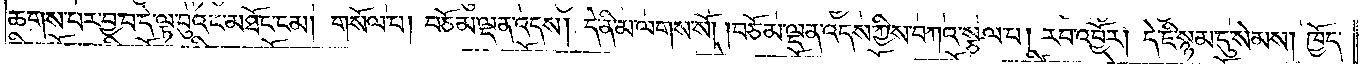ཆགས་པར་བྱ་བ་དེ་ལྟ་བུའང་མཐོང་ངམ། གསོལ་པ། བཅོམ་ལྡན་འདས། དེ་ནི་མ་ལགས་སོ། །བཅོམ་ལྡན་འདས་ཀྱིས་བཀའ་སྩལ་པ། རབ་འབྱོར། དེ་ཇི་སྙམ་དུ་སེམས། ཁྱོད་
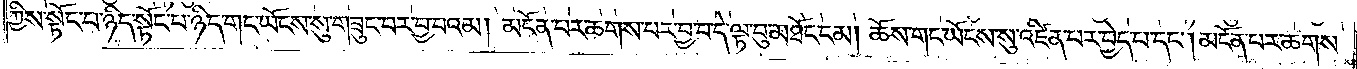ཀྱིས་སྟོང་པ་ཉིད་སྟོང་པ་ཉིད་གང་ཡོངས་སུ་གཟུང་བར་བྱ་བའམ། མངོན་པར་ཆགས་པར་བྱ་བ་དེ་ལྟ་བུ་མཐོང་ངམ། ཆོས་གང་ཡོངས་སུ་འཛིན་པར་བྱེད་པ་དང༌། མངོན་པར་ཆགས་
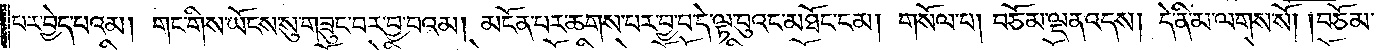པར་བྱེད་པའམ། གང་གིས་ཡོངས་སུ་གཟུང་བར་བྱ་བའམ། མངོན་པར་ཆགས་པར་བྱ་བ་དེ་ལྟ་བུའང་མཐོང་ངམ། གསོལ་པ། བཅོམ་ལྡན་འདས། དེ་ནི་མ་ལགས་སོ། །བཅོམ་
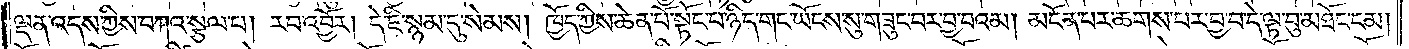ལྡན་འདས་ཀྱིས་བཀའ་སྩལ་པ། རབ་འབྱོར། དེ་ཇི་སྙམ་དུ་སེམས། ཁྱོད་ཀྱིས་ཆེན་པོ་སྟོང་པ་ཉིད་གང་ཡོངས་སུ་གཟུང་བར་བྱ་བའམ། མངོན་པར་ཆགས་པར་བྱ་བ་དེ་ལྟ་བུ་མཐོང་ངམ།
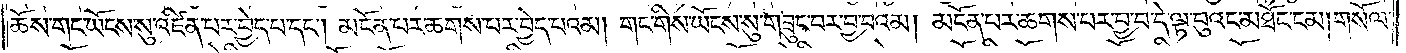ཆོས་གང་ཡོངས་སུ་འཛིན་པར་བྱེད་པ་དང༌། མངོན་པར་ཆགས་པར་བྱེད་པའམ། གང་གིས་ཡོངས་སུ་གཟུང་བར་བྱ་བའམ། མངོན་པར་ཆགས་པར་བྱ་བ་དེ་ལྟ་བུའང་མཐོང་ངམ། གསོལ་
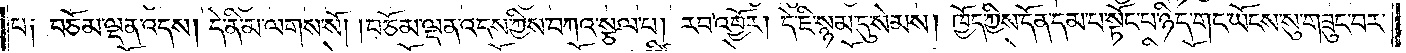པ༑ བཅོམ་ལྡན་འདས། དེ་ནི་མ་ལགས་སོ། །བཅོམ་ལྡན་འདས་ཀྱིས་བཀའ་སྩལ་པ། རབ་འབྱོར། དེ་ཇི་སྙམ་དུ་སེམས། ཁྱོད་ཀྱིས་དོན་དམ་པ་སྟོང་པ་ཉིད་གང་ཡོངས་སུ་གཟུང་བར་
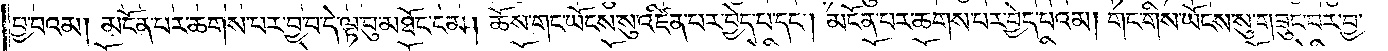བྱ་བའམ། མངོན་པར་ཆགས་པར་བྱ་བ་དེ་ལྟ་བུ་མཐོང་ངམ། ཆོས་གང་ཡོངས་སུ་འཛིན་པར་བྱེད་པ་དང༌། མངོན་པར་ཆགས་པར་བྱེད་པའམ། གང་གིས་ཡོངས་སུ་གཟུང་བར་བྱ་
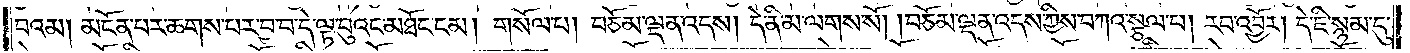བའམ། མངོན་པར་ཆགས་པར་བྱ་བ་དེ་ལྟ་བུའང་མཐོང་ངམ། གསོལ་པ། བཅོམ་ལྡན་འདས། དེ་ནི་མ་ལགས་སོ། །བཅོམ་ལྡན་འདས་ཀྱིས་བཀའ་སྩལ་པ། རབ་འབྱོར། དེ་ཇི་སྙམ་དུ་
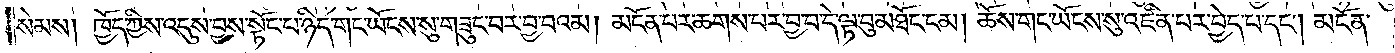སེམས། ཁྱོད་ཀྱིས་འདུས་བྱས་སྟོང་པ་ཉིད་གང་ཡོངས་སུ་གཟུང་བར་བྱ་བའམ། མངོན་པར་ཆགས་པར་བྱ་བ་དེ་ལྟ་བུ་མཐོང་ངམ། ཆོས་གང་ཡོངས་སུ་འཛིན་པར་བྱེད་པ་དང༌། མངོན་
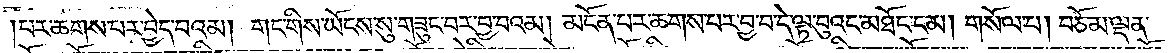པར་ཆགས་པར་བྱེད་པའམ། གང་གིས་ཡོངས་སུ་གཟུང་བར་བྱ་བའམ། མངོན་པར་ཆགས་པར་བྱ་བ་དེ་ལྟ་བུའང་མཐོང་ངམ། གསོལ་པ། བཅོམ་ལྡན་
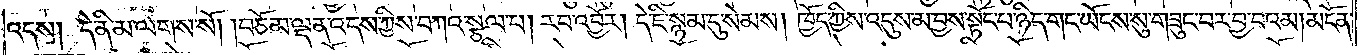འདས། དེ་ནི་མ་ལགས་སོ། །བཅོམ་ལྡན་འདས་ཀྱིས་བཀའ་སྩལ་པ། རབ་འབྱོར། དེ་ཇི་སྙམ་དུ་སེམས། ཁྱོད་ཀྱིས་འདུས་མ་བྱས་སྟོང་པ་ཉིད་གང་ཡོངས་སུ་གཟུང་བར་བྱ་བའམ། མངོན་
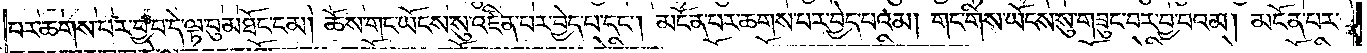པར་ཆགས་པར་བྱ་བ་དེ་ལྟ་བུ་མཐོང་ངམ། ཆོས་གང་ཡོངས་སུ་འཛིན་པར་བྱེད་པ་དང༌། མངོན་པར་ཆགས་པར་བྱེད་པའམ། གང་གིས་ཡོངས་སུ་གཟུང་བར་བྱ་བའམ། མངོན་པར་
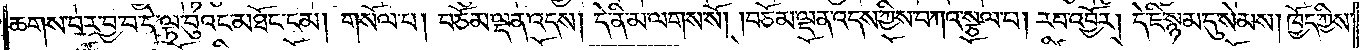ཆགས་པར་བྱ་བ་དེ་ལྟ་བུའང་མཐོང་ངམ། གསོལ་པ། བཅོམ་ལྡན་འདས། དེ་ནི་མ་ལགས་སོ། །བཅོམ་ལྡན་འདས་ཀྱིས་བཀའ་སྩལ་པ། རབ་འབྱོར། དེ་ཇི་སྙམ་དུ་སེམས། ཁྱོད་ཀྱིས་
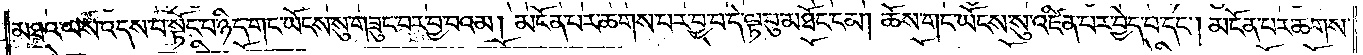མཐའ་ལས་འདས་པ་སྟོང་པ་ཉིད་གང་ཡོངས་སུ་གཟུང་བར་བྱ་བའམ། མངོན་པར་ཆགས་པར་བྱ་བ་དེ་ལྟ་བུ་མཐོང་ངམ། ཆོས་གང་ཡོངས་སུ་འཛིན་པར་བྱེད་པ་དང༌། མངོན་པར་ཆགས་
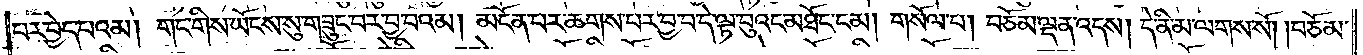པར་བྱེད་པའམ། གང་གིས་ཡོངས་སུ་གཟུང་བར་བྱ་བའམ། མངོན་པར་ཆགས་པར་བྱ་བ་དེ་ལྟ་བུའང་མཐོང་ངམ། གསོལ་པ། བཅོམ་ལྡན་འདས། དེ་ནི་མ་ལགས་སོ། །བཅོམ་
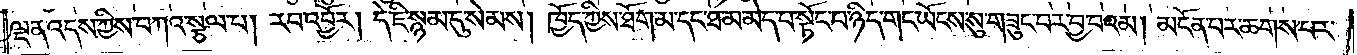ལྡན་འདས་ཀྱིས་བཀའ་སྩལ་པ། རབ་འབྱོར། དེ་ཇི་སྙམ་དུ་སེམས། ཁྱོད་ཀྱིས་ཐོག་མ་དང་ཐ་མ་མེད་པ་སྟོང་པ་ཉིད་གང་ཡོངས་སུ་གཟུང་བར་བྱ་བའམ། མངོན་པར་ཆགས་པར་
